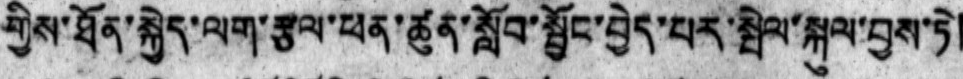གྱིས་ཐོན་སྐྱེད་ལག་རྩལ་ཕན་ཚུན་སློབ་སྦྱོང་བྱེད་པར་སྤེལ་སྐུལ་བྱས་ཏེ
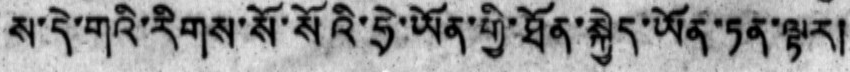ས་དེ་གའི་རིགས་སོ་སོའི་ཧྲེ་ཡོན་གྱི་ཐོན་སྐྱེད་ཡོན་ཏན་ལྟར།
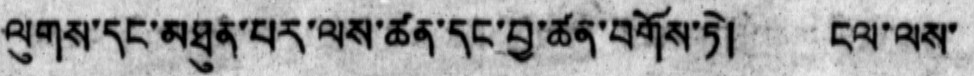ལུགས་དང་མཐུན་པར་ལས་ཚན་དང་བྱ་ཚན་བགོས་ཏེ།   ངལ་ལས་
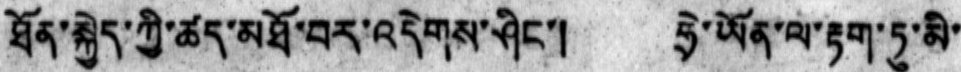ཐོན་སྐྱེད་ཀྱི་ཚད་མཐོ་བར་འདེགས་ཤིང་།  ཧྲེ་ཡོན་ལ་རྟག་ཏུ་མི་
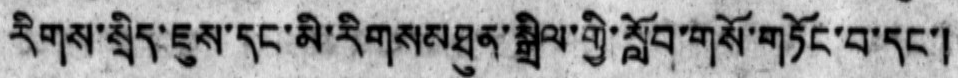རིགས་སྲིད་ཇུས་དང་མི་རིགས་མཐུན་སྒྲིལ་གྱི་སློབ་གསོ་གཏོང་བ་དང་།
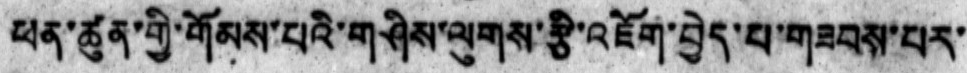ཕན་ཚུན་གྱི་གོམས་པའི་གཤིས་ལུགས་རྩི་འཇོག་བྱེད་པ་གཟབས་པར་
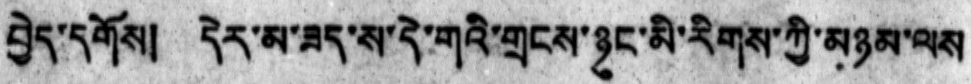བྱེད་དགོས།  དེར་མ་ཟད་ས་དེ་གའི་གྲངས་ཉུང་མི་རིགས་ཀྱི་མཉམ་ལས
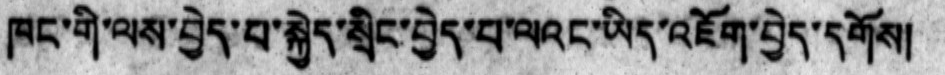ཁང་གི་ལས་བྱེད་པ་སྐྱེད་སྲིང་བྱེད་པ་ལའང་ཡིད་འཇོག་བྱེད་དགོས།
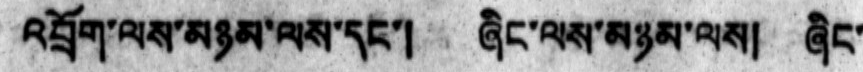འབྲོག་ལས་མཉམ་ལས་དང་།  ཞིང་ལས་མཉམ་ལས།  ཞིང་
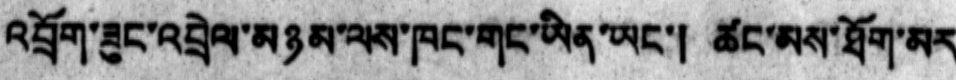འབྲོག་ཟུང་འབྲེལ་མཉམ་ལས་ཁང་གང་ཡིན་ཡང་། ཚང་མས་ཐོག་མར
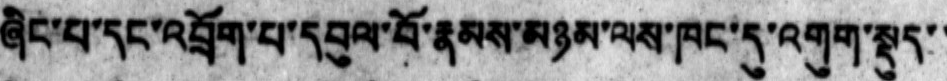ཞིང་པ་དང་འབྲོག་པ་དབུལ་བོ་རྣམས་མཉམ་ལས་ཁང་དུ་འགུག་སྡུད་་
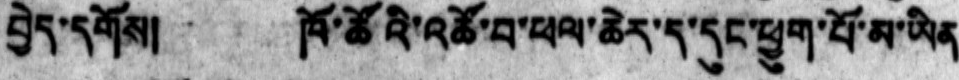བྱེད་དགོས།  ཁོ་ཚོའི་འཚོ་བ་ཕལ་ཆེར་ད་དུང་ཕྱུག་པོ་མ་ཡིན
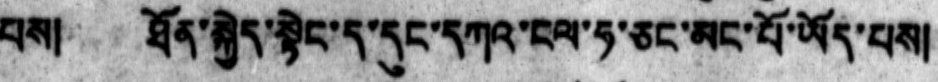པས། ཐོན་སྐྱེད་སྟེང་ད་དུང་དཀའ་ངལ་ཧ་ཅང་མང་པོ་ཡོད་པས།
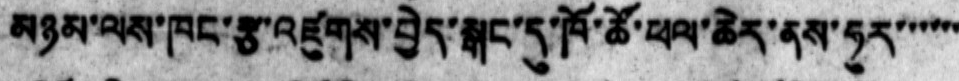མཉམ་ལས་ཁང་རྩ་འཛུགས་བྱེད་སྒང་དུ་ཁོ་ཚོ་ཕལ་ཆེར་ནས་ཧུར་་་་་
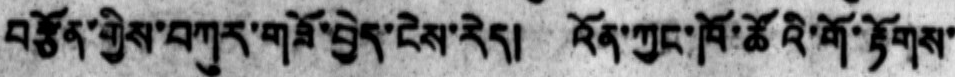བརྩོན་གྱིས་བཀུར་གཟོ་བྱེད་ངེས་རེད། འོན་ཀྱང་ཁོ་ཚོའི་གོ་རྟོགས་
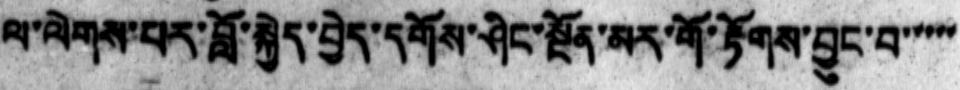ལ་ལེགས་པར་བློ་སྐྱེད་བྱེད་དགོས་ཤིང་སྔོན་མར་གོ་རྟོགས་བྱུང་བ་་་་
